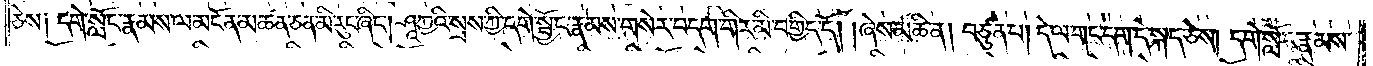ཅེས༑ དགེ་སློང་རྣམས་ལ་མངོན་མཚན་ཅན་མི་རུང་ཞིང༌། ཤཱཀྱའི་སྲས་ཀྱི་དགེ་སྦྱོང་རྣམས་གསེར་བདག་གིར་མི་བགྱིད་དོ། །ཞེས་མཆི་ན། བཙུན་པ། དེ་ལ་གང་དག་དེ་སྐད་ཅེས། དགེ་སློང་རྣམས་
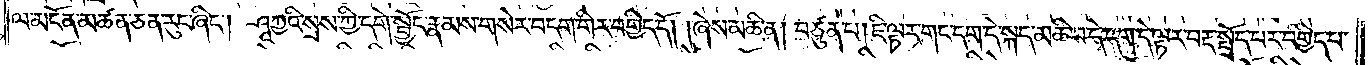ལ་མངོན་མཚན་ཅན་རུང་ཞིང༌། ཤཱཀྱའི་སྲས་ཀྱི་དགེ་སྦྱོང་རྣམས་གསེར་བདག་གིར་བགྱིད་དོ། །ཞེས་མཆི་ན། བཙུན་པ། ཇི་ལྟར་གང་དག་དེ་སྐད་མཆི་བ་དེ་དག་དེ་ལྟར་བརྡ་སྤྲོད་པར་བགྱིད་པ་
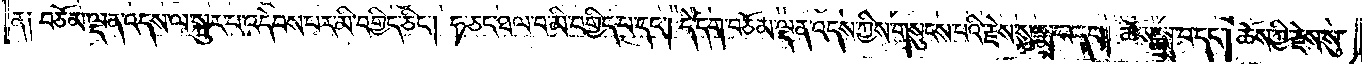ན༑ བཅོམ་ལྡན་འདས་ལ་སྐུར་པ་འདེབས་པར་མི་བགྱིད་ཅིང༌། ཧ་ཅང་ཐལ་བ་མི་བགྱིད་པ་དང༌། དེ་དག་བཅོམ་ལྡན་འདས་ཀྱིས་གསུངས་པའི་རྗེས་སུ་སྨྲ་བ་དང༌། ཆོས་སྨྲ་བ་དང༌། ཆོས་ཀྱི་རྗེས་སུ་
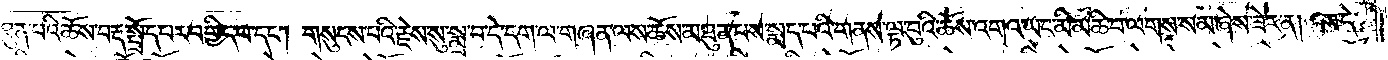མཐུན་པའི་ཆོས་བརྡ་སྤྲོད་པར་བགྱིད་པ་དང༌། གསུངས་པའི་རྗེས་སུ་སྨྲ་བ་དེ་དག་ལ་གཞན་ལས་ཆོས་མཐུན་པས་སྨད་པའི་གནས་ལྟ་བུའི་ཆོས་འགའ་ཡང་མི་མཆི་བ་ལགས་སམ་ཞེས་ཟེར་ན། ངས་དེ་
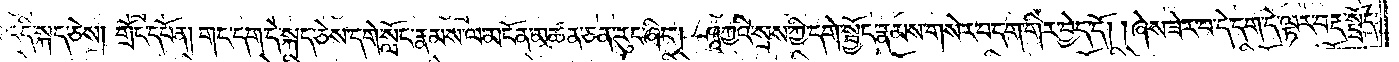ལ་འདི་སྐད་ཅེས། གྲོང་དཔོན། གང་དག་དེ་སྐད་ཅེས་དགེ་སློང་རྣམས་ལ་མངོན་མཚན་ཅན་རུང་ཞིང༌། ཤཱཀྱའི་སྲས་ཀྱི་དགེ་སྦྱོང་རྣམས་གསེར་བདག་གིར་བྱེད་དོ། །ཞེས་ཟེར་བ་དེ་དག་དེ་ལྟར་བརྡ་སྤྲོད་
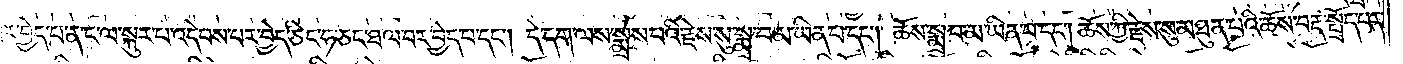པར་བྱེད་པ་ན་ང་ལ་སྐུར་པ་འདེབས་པར་བྱེད་ཅིང་ཧ་ཅང་ཐལ་བར་བྱེད་པ་དང༌། དེ་དག་ལས་སྨྲས་པའི་རྗེས་སུ་སྨྲ་བ་མ་ཡིན་པ་དང༌། ཆོས་སྨྲ་བ་མ་ཡིན་པ་དང༌། ཆོས་ཀྱི་རྗེས་སུ་མཐུན་པའི་ཆོས་བརྡ་སྤྲོད་པར་
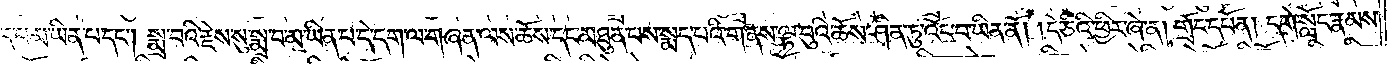བྱེད་པ་མ་ཡིན་པ་དང༌། སྨྲ་བའི་རྗེས་སུ་སྨྲ་བ་མ་ཡིན་པ་དེ་དག་ལ་གཞན་ལས་ཆོས་དང་མཐུན་པས་སྨད་པའི་གནས་ལྟ་བུའི་ཆོས་ཤིན་ཏུ་འོང་བ་ཡིན་ནོ། །དེ་ཅིའི་ཕྱིར་ཞེ་ན། གྲོང་དཔོན། དགེ་སློང་རྣམས་
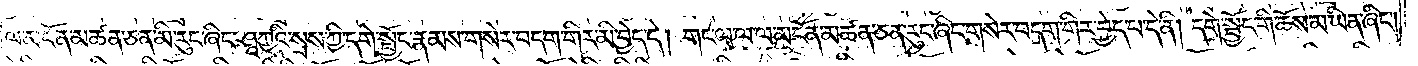ལ་མངོན་མཚན་ཅན་མི་རུང་ཞིང་ཤཱཀྱའི་སྲས་ཀྱི་དགེ་སྦྱོང་རྣམས་གསེར་བདག་གིར་མི་བྱེད་དེ། གང་ལ་ལ་ལ་མངོན་མཚན་ཅན་རུང་ཞིང་གསེར་བདག་གིར་བྱེད་པ་དེ་ནི། དགེ་སྦྱོང་གི་ཆོས་མ་ཡིན་ཞིང༌།
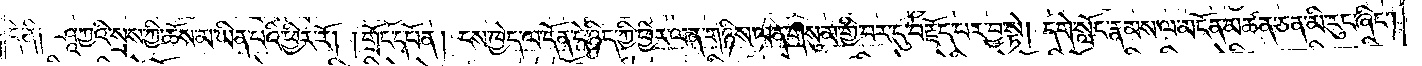དེ་ནི༑ ཤཱཀྱའི་སྲས་ཀྱི་ཆོས་མ་ཡིན་པའི་ཕྱིར་རོ། །གྲོང་དཔོན། ངས་ཁྱེད་ལ་དོན་དེ་ཉིད་ཀྱི་ཕྱིར་ལན་གཉིས་ལན་གསུམ་གྱི་བར་དུ་བརྗོད་པར་བྱ་སྟེ། དགེ་སློང་རྣམས་ལ་མངོན་མཚན་ཅན་མི་རུང་ཞིང༌།
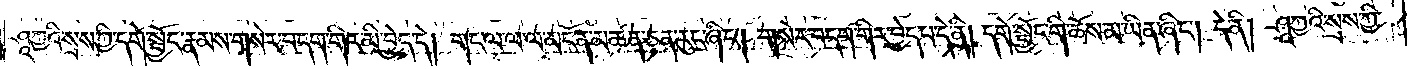ཤཱཀྱའི་སྲས་ཀྱི་དགེ་སྦྱོང་རྣམས་གསེར་བདག་གིར་མི་བྱེད་དེ། གང་ལ་ལ་ལ་མངོན་མཚན་ཅན་རུང་ཞིང༌། གསེར་བདག་གིར་བྱེད་པ་དེ་ནི། དགེ་སྦྱོང་གི་ཆོས་མ་ཡིན་ཞིང༌། དེ་ནི། ཤཱཀྱའི་སྲས་ཀྱི་
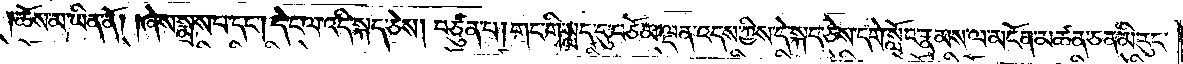ཆོས་མ་ཡིན་ནོ། །ཞེས་སྨྲས་པ་དང༌། དེ་ང་ལ་འདི་སྐད་ཅེས། བཙུན་པ། གང་གི་སླད་དུ་བཅོམ་ལྡན་འདས་ཀྱིས་དེ་སྐད་ཅེས་དགེ་སློང་རྣམས་ལ་མངོན་མཚན་ཅན་མི་རུང་
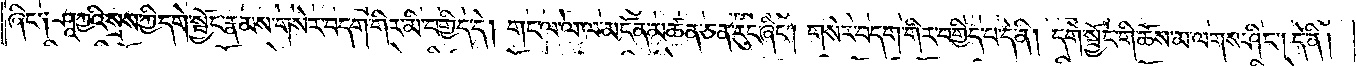ཞིང་༑ ཤཱཀྱའི་སྲས་ཀྱི་དགེ་སྦྱོང་རྣམས་གསེར་བདག་གིར་མི་བགྱིད་དེ། གང་ལ་ལ་ལ་མངོན་མཚན་ཅན་རུང་ཞིང༌། གསེར་བདག་གིར་བགྱིད་པ་དེ་ནི། དགེ་སྦྱོང་གི་ཆོས་མ་ལགས་ཤིང༌། དེ་ནི།
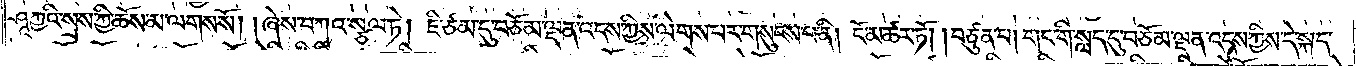ཤཱཀྱའི་སྲས་ཀྱི་ཆོས་མ་ལགས་སོ། །ཞེས་བཀའ་སྩལ་ཏེ། ཇི་ཙམ་དུ་བཅོམ་ལྡན་འདས་ཀྱིས་ལེགས་པར་གསུངས་པ་ནི། ངོ་མཚར་ཏོ། །བཙུན་པ། གང་གི་སླད་དུ་བཅོམ་ལྡན་འདས་ཀྱིས་དེ་སྐད་
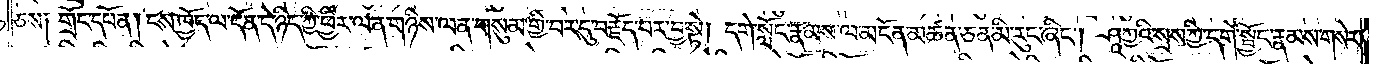ཅེས༑ གྲོང་དཔོན། ངས་ཁྱོད་ལ་དོན་དེ་ཉིད་ཀྱི་ཕྱིར་ལན་གཉིས་ལན་གསུམ་གྱི་བར་དུ་བརྗོད་པར་བྱ་སྟེ། དགེ་སློང་རྣམས་ལ་མངོན་མཚན་ཅན་མི་རུང་ཞིང༌། ཤཱཀྱའི་སྲས་ཀྱི་དགེ་སྦྱོང་རྣམས་གསེར་
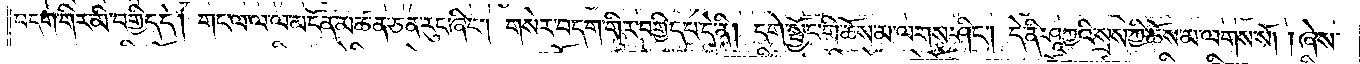བདག་གིར་མི་བགྱིད་དེ། གང་ལ་ལ་ལ་མངོན་མཚན་ཅན་རུང་ཞིང༌། གསེར་བདག་གིར་བགྱིད་པ་དེ་ནི། དགེ་སྦྱོང་གི་ཆོས་མ་ལགས་ཤིང༌། དེ་ནི་ཤཱཀྱའི་སྲས་ཀྱི་ཆོས་མ་ལགས་སོ། །ཞེས་
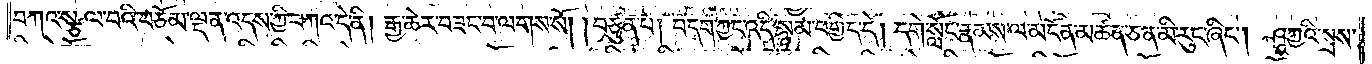བཀའ་སྩལ་བའི་བཅོམ་ལྡན་འདས་ཀྱི་བཀའ་དེ་ནི། རྒྱ་ཆེར་བཟང་བ་ལགས་སོ། །བཙུན་པ། བདག་ཀྱང་འདི་སྙམ་བགྱིད་དེ། དགེ་སློང་རྣམས་ལ་མངོན་མཚན་ཅན་མི་རུང་ཞིང༌། ཤཱཀྱའི་སྲས་
